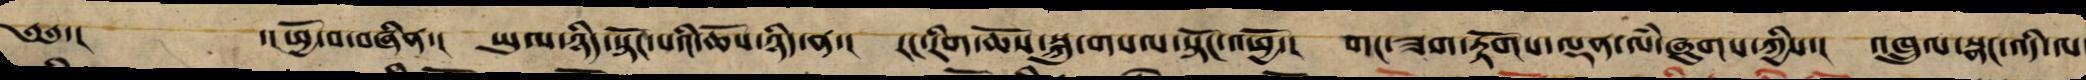༄༅་། ་། ཕྱོ་བ་བཞིན་། ཡུལ་ཉིད་སྟོང་པའི་ཆོས་ཉིད་ན་། རང་རིག་ཆོས་སྐུ་གསལ་སྟོང་འཕྱོ་། གང་ཟག་རྟོགས་ལྡན་ལཾ་ཞུགས་ཀྱིས་། འཁྲུལ་སྣང་འདི་ལ་
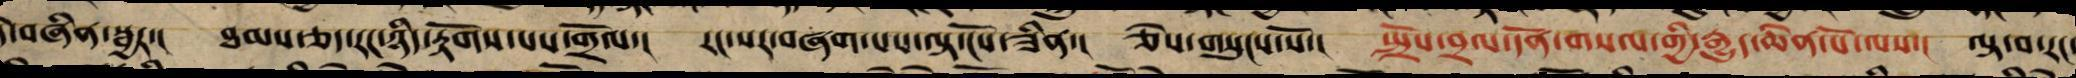དེ་བཞིན་སྦྱར་། ཐམས་ཅད་རང་ཉིད་རྟོགས་པས་གྲོལ་། རང་སར་བཞག་པས་ལྟ་ངོས་ཟིན་། ཅེས་གསུངས་སོ་། སྤྲོས་བྲལ་དོན་གསལ་གྱི་རྒྱུད་ཆེན་པོ་ལས་། ལྟ་བ་རང་
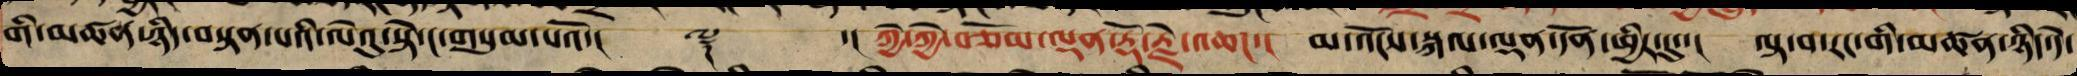གི་མཚན་ཉིད་བསྟན་པའི་ལེའུ་སྟེ་ང་གསུམ་པའོ་།  ༈ ་། ཀྱེ་ཀྱེ་བཅོམ་ལྡན་རྡོ་རྗེ་འཆང་། མ་འོངས་སྐལ་ལྡན་དོན་ཕྱིར་དུ་་། ལྟ་བ་རང་གི་མཚན་ཉིད་དེ་
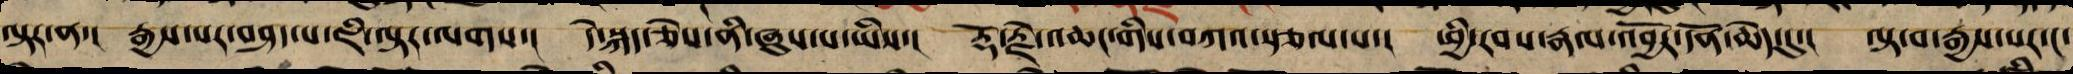ལྟར་ན་། རྒྱས་པར་བཤད་པ་ཇི་ལྟར་ལགས་། དེ་སྐད་ཅེས་ནི་ཞུས་པ་ཡིས་། རྡོ་རྗེ་འཆང་གིས་བཀའ་སྩལ་པ་། ཕྱི་རབས་རྣལ་འབྱོར་དོན་ཆེད་དུ་། ལྟ་བ་རྒྱས་པར་ང་
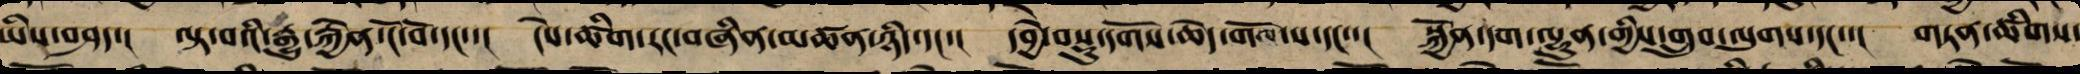ཡིས་བཤད་། ལྟ་བའི་རྒྱུ་རྐྱེན་ངོ་བོ་དང་་། ངེས་ཚིག་རང་བཞིན་མཚན་ཉིད་དང་། དབྱེ་བསྡུ་དགོས་ཆེད་གོལ་ས་དང་་། སྐྱོན་དག་ལྷུན་གྱིས་གྲུབ་ལུགས་དང་་། གཏན་ཚིགས་
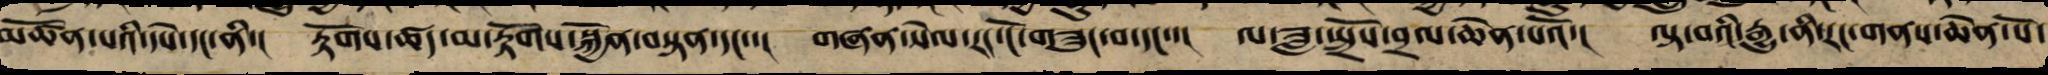མཚོན་པའི་དཔེ་དང་ནི་། རྟོགས་ཚད་མ་རྟོགས་སྐྱོན་བསྟན་དང་་། གཞན་སེལ་རང་ངོ་བཟུང་བ་དང་་། ལ་ཟླ་སྤྲོས་བྲལ་ཆེན་པའོ་། ལྟ་བའི་རྒྱུ་ནི་རང་གནས་ཆེན་པོ་
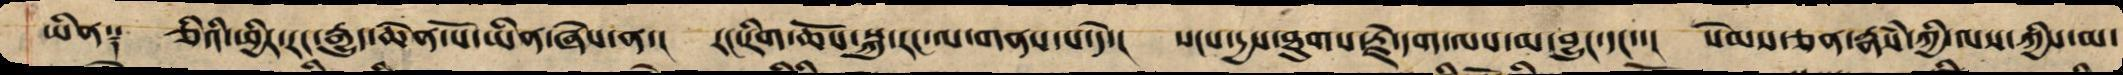ཡིན༑ ཅིའི་ཕྱིར་རང་རྒྱུད་ཆེན་པོ་ཡིན་ཞེས་ན་། རང་རིག་ཆོས་སྐུ་རང་ལ་གནས་པ་དེ་། སངས་དྱས་ཐུགས་རྗེ་དག་ལས་མ་བྱུང་དང་་། སེམས་ཅན་རྣཾས་ཀྱི་ལས་ཀྱིས་མ་
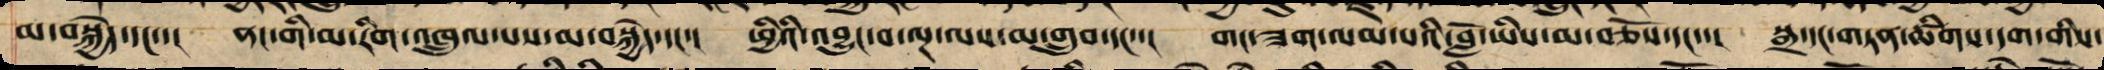མ་བསྐྱེད་དང་་། ནང་གི་མ་རིག་འཁྲུལ་པས་མ་བསྐྱེད་དང་། ཕྱིའི་འབྱུང་བ་ལྔ་ལས་མ་གྲུབ་དང་་། གང་ཟག་ལམ་པའི་བློ་ཡིས་མ་བཅོས་དང་་། སྒྲ་དང་གཏན་ཚིགས་དག་གིས་
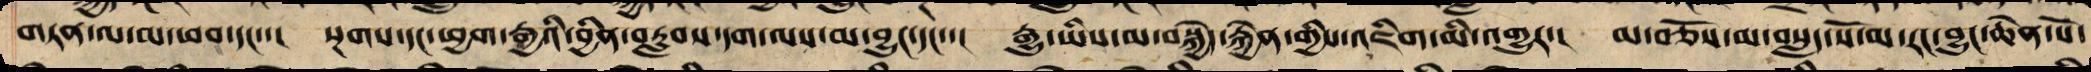གཏན་ལ་མ་ཕབ་དང་་། སྔགས་དང་ཕྱག་རྒྱའི་བྱིན་བརླབས་དག་ལས་མ་བྱུང་དང་་། རྒྱུ་ཡིས་མ་བསྐྱེད་རྐྱེན་གྱིས་འཇིག་མི་འགྱུར་། མ་བཅོས་མ་བསླད་སོ་མ་རང་བྱུང་ཆེན་པོ་
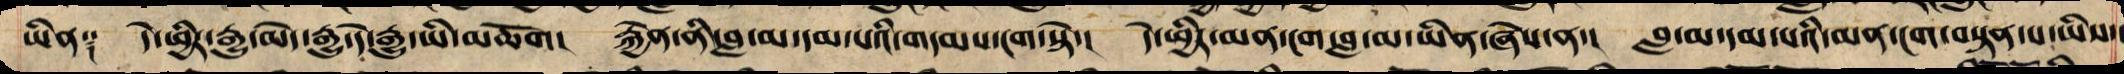ཡིན༑ དེ་ཕྱིར་རྒྱུ་མེད་རྒྱུ་དེ་རྒྱུ་ཡི་མཆོག། རྐྱེན་ནི་བླ་མ་དམ་པའི་གདམས་ངག་སྟེ་། དེ་ཕྱིར་མན་ངག་བླ་མ་ཡིན་ཞེས་ན་། བླ་མ་དམ་པའི་མན་ངག་བསྟན་པ་ཡིས་།
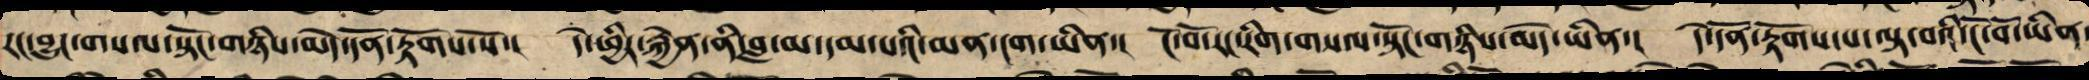རང་བྱུང་གསལ་སྟོང་གཉིས་མེད་དོན་རྟོགས་སོ་། དེ་ཕྱིར་རྐྱེན་ནི་བླ་མ་དམ་པའི་མན་ངག་ཡིན་། ངོ་བོ་རང་རིག་གསལ་སྟོང་གཉིས་མེད་ཡིན་། དེ་དོན་རྟོགས་པ་ལྟ་བའི་ངོ་བོ་ཡིན་
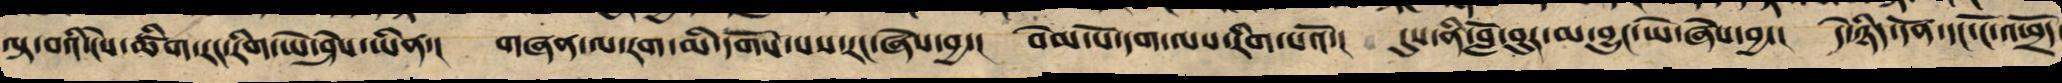ལྟ་བའི་ངེས་ཚིག་རང་རིག་ཡེ་ཤེས་ཡིན་། གཞན་ལ་རག་མི་དགོས་པས་རང་ཞེས་བྱ་། བེམ་པོ་དག་ལས་རིག་པའོ་། དུས་ནི་བློ་བུར་མ་བྱུང་ཡེ་ཞེས་བྱ་། དེ་ཉིད་དོན་དང་ངོ་ཕྲོད་
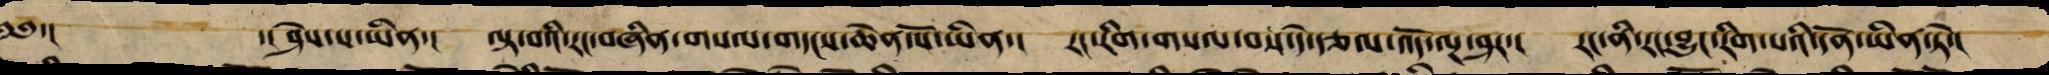༄༅་། ་། ཤེས་པ་ཡིན་། ལྟ་བའི་རང་བཞིན་གསལ་གདངས་ཆེན་པོ་ཡིན་། རང་རིག་གསལ་བས་དེ་རྩལ་འོད་ལྔ་ཤར་། རང་ནི་རང་བྱུང་རིག་པའི་དོན་ཡིན་ཏེ་།
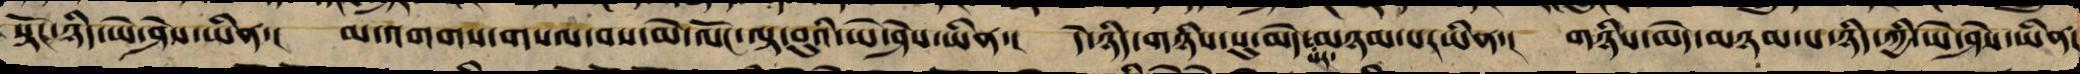སྟོང་ཉིད་ཡེ་ཤེས་ཡིན་། མ་འགགས་གསལ་བས་མེ་ལོང་ལྟ་བུའི་ཡེ་ཤེས་ཡིན་། དེ་ཉིད་གཉིས་སུ་མེད་མཉམ་པར་ཡིན་། གཉིས་མེད་མཉམ་པ་ཉིད་ཀྱི་ཡེ་ཤེས་ཡིན།
